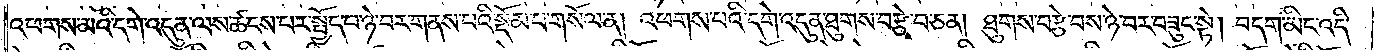འཕགས་མའི་དགེ་འདུན་ལས་ཚངས་པར་སྤྱོད་པ་ཉེ་བར་གནས་པའི་སྡོམ་པ་གསོལ་ན། འཕགས་པའི་དགེ་འདུན་ཐུགས་བརྩེ་བ་ཅན། ཐུགས་བརྩེ་བས་ཉེ་བར་བཟུང་སྟེ། བདག་མིང་འདི་
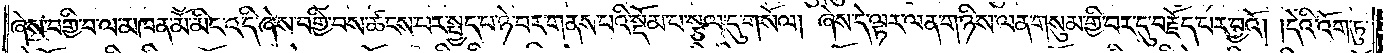ཞེས་བགྱི་བ་ལ་མཁན་མོ་མིང་འདི་ཞེས་བགྱི་བས་ཚངས་པར་སྤྱད་པ་ཉེ་བར་གནས་པའི་སྡོམ་པ་སྩལ་དུ་གསོལ། ཞེས་དེ་ལྟར་ལན་གཉིས་ལན་གསུམ་གྱི་བར་དུ་བརྗོད་པར་བྱའོ། །དེའི་འོག་ཏུ་
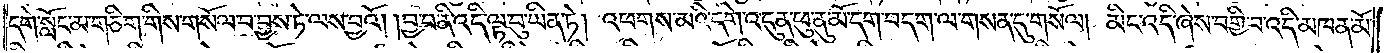དགེ་སློང་མ་གཅིག་གིས་གསོལ་བ་བྱས་ཏེ་ལས་བྱའོ། །བྱ་བ་ནི་འདི་ལྟ་བུ་ཡིན་ཏེ། འཕགས་མའི་དགེ་འདུན་ཕུ་ནུ་མོ་དག་བདག་ལ་གསན་དུ་གསོལ། མིང་འདི་ཞེས་བགྱི་བ་འདི་མཁན་མོ་
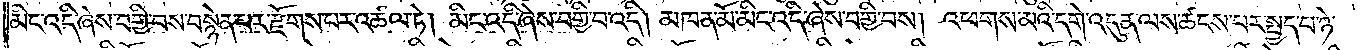མིང་འདི་ཞེས་བགྱི་བས་བསྙེན་པར་རྫོགས་པར་འཚལ་ཏེ། མིང་འདི་ཞེས་བགྱི་བ་འདི། མཁན་མོ་མིང་འདི་ཞེས་བགྱི་བས། འཕགས་མའི་དགེ་འདུན་ལས་ཚངས་པར་སྤྱད་པ་ཉེ་
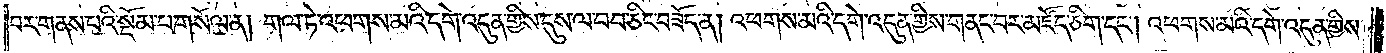བར་གནས་པའི་སྡོམ་པ་གསོལ་ན། གལ་ཏེ་འཕགས་མའི་དགེ་འདུན་གྱིས་དུས་ལ་བབ་ཅིང་བཟོད་ན། འཕགས་མའི་དགེ་འདུན་གྱིས་གནང་བར་མཛོད་ཅིག་དང༌། འཕགས་མའི་དགེ་འདུན་གྱིས་
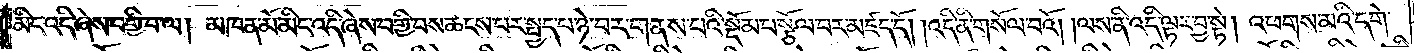མིང་འདི་ཞེས་བགྱི་བ་ལ། མཁན་མོ་མིང་འདི་ཞེས་བགྱི་བས་ཚངས་པར་སྤྱད་པ་ཉེ་བར་གནས་པའི་སྡོམ་པ་སྩོལ་བར་མཛད་དོ། །འདི་ནི་གསོལ་བའོ། །ལས་ནི་འདི་ལྟར་བྱ་སྟེ། འཕགས་མའི་དགེ་
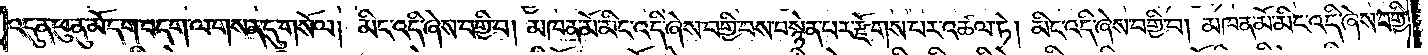འདུན་ཕུ་ནུ་མོ་དག་བདག་ལ་གསན་དུ་གསོལ། མིང་འདི་ཞེས་བགྱི་བ། མཁན་མོ་མིང་འདི་ཞེས་བགྱི་བས་བསྙེན་པར་རྫོགས་པར་འཚལ་ཏེ། མིང་འདི་ཞེས་བགྱི་བ། མཁན་མོ་མིང་འདི་ཞེས་བགྱི་
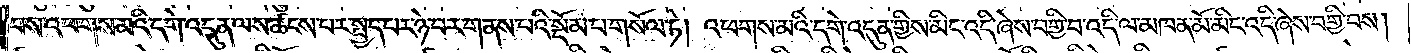བས་འཕགས་མའི་དགེ་འདུན་ལས་ཚངས་པར་སྤྱད་པར་ཉེ་བར་གནས་པའི་སྡོམ་པ་གསོལ་ཏེ། འཕགས་མའི་དགེ་འདུན་གྱིས་མིང་འདི་ཞེས་བགྱི་བ་འདི་ལ་མཁན་མོ་མིང་འདི་ཞེས་བགྱི་བས།
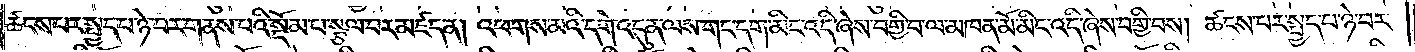ཚངས་པར་སྤྱད་པ་ཉེ་བར་གནས་པའི་སྡོམ་པ་སྩལ་བར་མཛད་ན། འཕགས་མའི་དགེ་འདུན་ལས་གང་དག་མིང་འདི་ཞེས་བགྱི་བ་ལ་མཁན་མོ་མིང་འདི་ཞེས་བགྱི་བས། ཚངས་པར་སྤྱད་པ་ཉེ་བར་
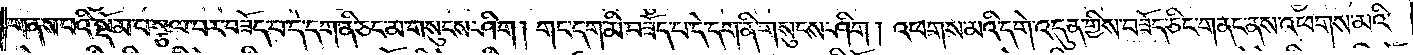གནས་པའི་སྡོམ་པ་སྩལ་བར་བཟོད་པ་དེ་དག་ནི་ཅང་མ་གསུངས་ཤིག། གང་དག་མི་བཟོད་པ་དེ་དག་ནི་གསུངས་ཤིག། འཕགས་མའི་དགེ་འདུན་གྱིས་བཟོད་ཅིང་གནང་ནས་འཕགས་མའི་
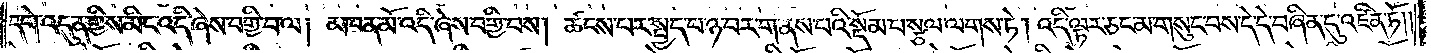དགེ་འདུན་གྱིས་མིང་འདི་ཞེས་བགྱི་བ་ལ། མཁན་མོ་འདི་ཞེས་བགྱི་བས། ཚངས་པར་སྤྱད་པ་ཉ་བར་གནས་པའི་སྡོམ་པ་སྩལ་ལགས་ཏེ། འདི་ལྟར་ཅང་མ་གསུང་བས་དེ་དེ་བཞིན་དུ་འཛིན་ཏོ༎
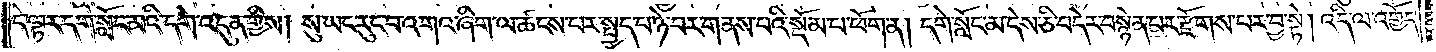དེ་ལྟར་དགེ་སློང་མའི་དགེ་འདུན་གྱིས། སུ་ཡང་རུང་བ་འགའ་ཞིག་ལ་ཚངས་པར་སྤྱད་པ་ཉེ་བར་གནས་པའི་སྡོམ་པ་ཕོག་ན། དགེ་སློང་མ་དེས་ཅི་བདེར་བསྙེན་པར་རྫོགས་པར་བྱ་སྟེ། འདི་ལ་འགྱོད་
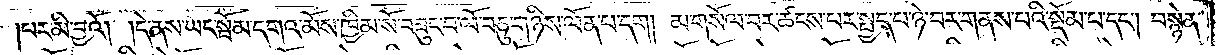པར་མི་བྱའོ། །དེ་ནས་ཡང་སྦོམ་དགའ་མོས་ཁྱིམ་སོ་བཟུང་བ་ལོ་བཅུ་གཉིས་ལོན་ཕ་དག། མ་གསོལ་བར་ཚངས་པར་སྤྱད་པ་ཉི་བར་གནས་པའི་སྡོམ་པ་དང༌། བསྙེན་
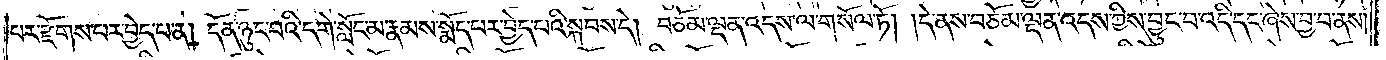པར་རྫོགས་པར་བྱེད་པ་ན། དོན་ཉུང་བའི་དགེ་སློང་མ་རྣམས་སྨོད་པར་བྱེད་པའི་སྐབས་དེ། བཅོམ་ལྡན་འདས་ལ་གསོལ་ཏོ། །དེ་ནས་བཅོམ་ལྡན་འདས་ཀྱིས་བྱུང་བ་འདི་དང་ཞེས་བྱ་བ་ནས།
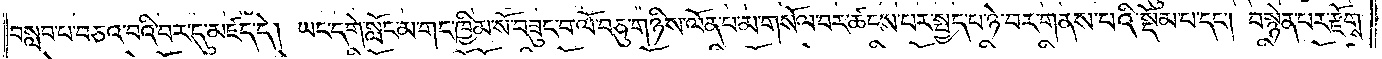བསླབ་པ་བཅའ་བའི་བར་དུ་མཛད་དེ། ཡང་དགེ་སློང་མ་གང་ཁྱིམ་སོ་བཟུང་བ་ལོ་བཅུ་གཉིས་ལོན་པ་མ་གསོལ་བར་ཚངས་པར་སྤྱད་པ་ཉེ་བར་གནས་པའི་སྡོམ་པ་དང༌། བསྙེན་པར་རྫོགས་
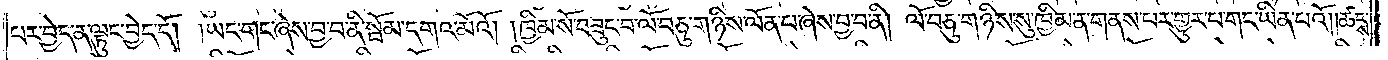པར་བྱེད་ན་ལྟུང་བྱེད་དོ། །ཡང་གང་ཞེས་བྱ་བ་ནི་སྦོམ་དགའ་མོའོ། །ཁྱིམ་སོ་བཟུང་བ་ལོ་བཅུ་གཉིས་ལོན་པ་ཞེས་བྱ་བ་ནི། ལོ་བཅུ་གཉིས་སུ་ཁྱིམ་ན་གནས་པར་གྱུར་པ་གང་ཡིན་པའོ༎ཚངས་
